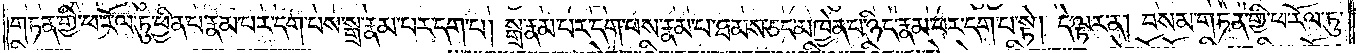གཏན་གྱི་ཕ་རོལ་ཏུ་ཕྱིན་པ་རྣམ་པར་དག་པས་སྒྲ་རྣམ་པར་དག་པ། སྒྲ་རྣམ་པར་དག་པས་རྣམ་པ་ཐམས་ཅད་མཁྱེན་པ་ཉིད་རྣམ་པར་དག་པ་སྟེ། དེ་ལྟར་ན། བསམ་གཏན་གྱི་ཕ་རོལ་ཏུ་
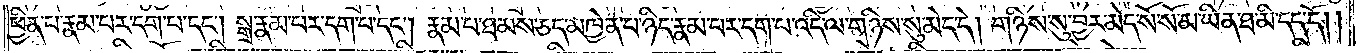ཕྱིན་པ་རྣམ་པར་དག་པ་དང༌། སྒྲ་རྣམ་པར་དག་པ་དང་།  རྣམ་པ་ཐམས་ཅད་མཁྱེན་པ་ཉིད་རྣམ་པར་དག་པ་འདི་ལ་གཉིས་སུ་མེད་དེ། གཉིས་སུ་བྱར་མེད་སོ་སོ་མ་ཡིན་ཐ་མི་དད་དོ། །
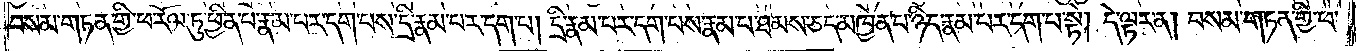བསམ་གཏན་གྱི་ཕ་རོལ་ཏུ་ཕྱིན་པ་རྣམ་པར་དག་པས་དྲི་རྣམ་པར་དག་པ༑ དྲི་རྣམ་པར་དག་པས་རྣམ་པ་ཐམས་ཅད་མཁྱེན་པ་ཉིད་རྣམ་པར་དག་པ་སྟེ། དེ་ལྟར་ན། བསམ་གཏན་གྱི་ཕ་
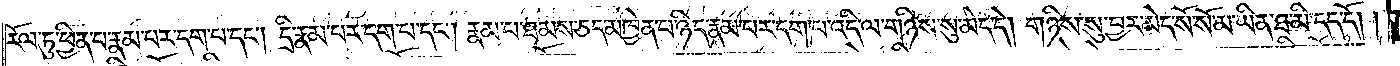རོལ་ཏུ་ཕྱིན་པ་རྣམ་པར་དག་པ་དང༌། དྲི་རྣམ་པར་དག་པ་དང༌། རྣམ་པ་ཐམས་ཅད་མཁྱེན་པ་ཉིད་རྣམ་པར་དག་པ་འདི་ལ་གཉིས་སུ་མེད་དེ། གཉིས་སུ་བྱར་མེད་སོ་སོ་མ་ཡིན་ཐ་མི་དད་དོ། །
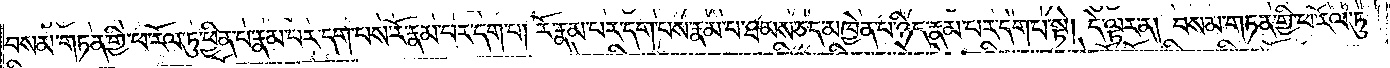བསམ་གཏན་གྱི་ཕ་རོལ་ཏུ་ཕྱིན་པ་རྣམ་པར་དག་པས་རོ་རྣམ་པར་དག་པ། རོ་རྣམ་པར་དག་པས་རྣམ་པ་ཐམས་ཅད་མཁྱེན་པ་ཉིད་རྣམ་པར་དག་པ་སྟེ། དེ་ལྟར་ན། བསམ་གཏན་གྱི་ཕ་རོལ་ཏུ་
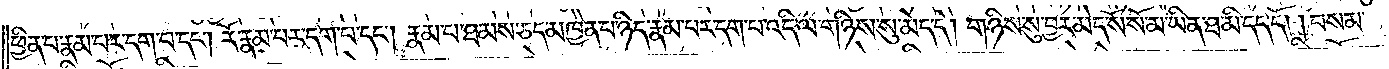ཕྱིན་པ་རྣམ་པར་དག་པ་དང༌། རོ་རྣམ་པར་དག་པ་དང༌། རྣམ་པ་ཐམས་ཅད་མཁྱེན་པ་ཉིད་རྣམ་པར་དག་པ་འདི་ལ་གཉིས་སུ་མེད་དེ། གཉིས་སུ་བྱར་མེད་སོ་སོ་མ་ཡིན་ཐ་མི་དད་དོ། །བསམ་
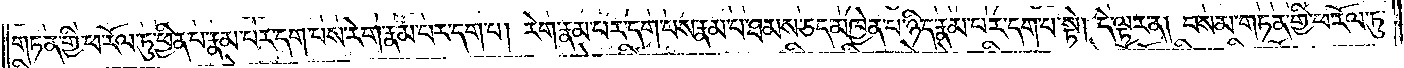གཏན་གྱི་ཕ་རོལ་ཏུ་ཕྱིན་པ་རྣམ་པར་དག་པས་རེག་རྣམ་པར་དག་པ། རེག་རྣམ་པར་དག་པས་རྣམ་པ་ཐམས་ཅད་མཁྱེན་པ་ཉིད་རྣམ་པར་དག་པ་སྟེ། དེ་ལྟར་ན། བསམ་གཏན་གྱི་ཕ་རོལ་ཏུ་
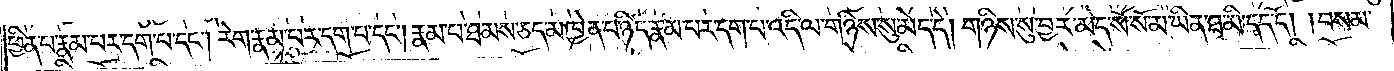ཕྱིན་པ་རྣམ་པར་དག་པ་དང༌། རེག་རྣམ་པར་དག་པ་དང༌། རྣམ་པ་ཐམས་ཅད་མཁྱེན་པ་ཉིད་རྣམ་པར་དག་པ་འདི་ལ་གཉིས་སུ་མེད་དེ། གཉིས་སུ་བྱར་མེད་སོ་སོ་མ་ཡིན་ཐ་མི་དད་དོ། །བསམ་
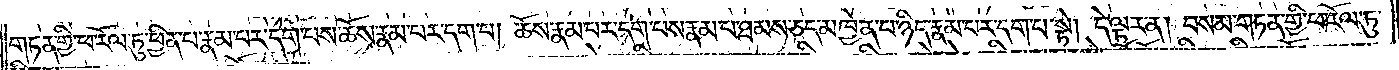གཏན་གྱི་ཕ་རོལ་ཏུ་ཕྱིན་པ་རྣམ་པར་དག་པས་ཆོས་རྣམ་པར་དག་པ། ཆོས་རྣམ་པར་དག་པས་རྣམ་པ་ཐམས་ཅད་མཁྱེན་པ་ཉིད་རྣམ་པར་དག་པ་སྟེ། དེ་ལྟར་ན། བསམ་གཏན་གྱི་ཕ་རོལ་ཏུ་
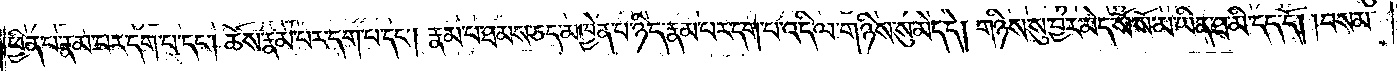ཕྱིན་པ་རྣམ་པར་དག་པ་དང༌། ཆོས་རྣམ་པར་དག་པ་དང༌། རྣམ་པ་ཐམས་ཅད་མཁྱེན་པ་ཉིད་རྣམ་པར་དག་པ་འདི་ལ་གཉིས་སུ་མེད་དེ་གཉིས་སུ་བྱར་མེད་སོ་སོ་མ་ཡིན་ཐ་མི་དད་དོ། །བསམ་
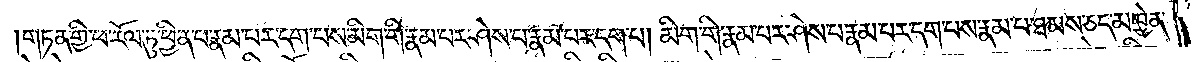གཏན་གྱི་ཕ་རོལ་ཏུ་ཕྱིན་པ་རྣམ་པར་དག་པས་མིག་གི་རྣམ་པར་ཤེས་པ་རྣམ་པར་དག་པ། མིག་གི་རྣམ་པར་ཤེས་པ་རྣམ་པར་དག་པས་རྣམ་པ་ཐམས་ཅད་མཁྱེན་
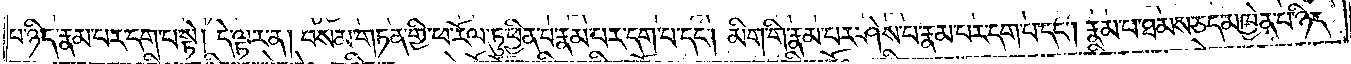པ་ཉིད་རྣམ་པར་དག་པ་སྟེ། དེ་ལྟར་ན། བསམ་གཏན་གྱི་ཕ་རོལ་ཏུ་ཕྱིན་པ་རྣམ་པར་དག་པ་དང༌། མིག་གི་རྣམ་པར་ཤེས་པ་རྣམ་པར་དག་པ་དང༌། རྣམ་པ་ཐམས་ཅད་མཁྱེན་པ་ཉིད་
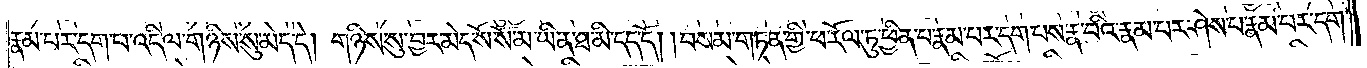རྣམ་པར་དག་པ་འདི་ལ་གཉིས་སུ་མེད་དེ། གཉིས་སུ་བྱར་མེད་སོ་སོ་མ་ཡིན་ཐ་མི་དད་དོ། །བསམ་གཏན་གྱི་ཕ་རོལ་ཏུ་ཕྱིན་པ་རྣམ་པར་དག་པས་རྣ་བའི་རྣམ་པར་ཤེས་པ་རྣམ་པར་དག་
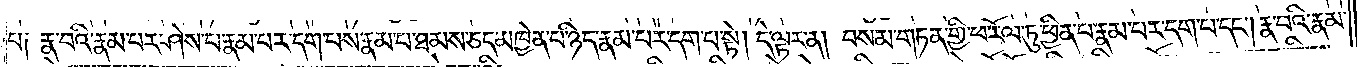པ། རྣ་བའི་རྣམ་པར་ཤེས་པ་རྣམ་པར་དག་པས་རྣམ་པ་ཐམས་ཅད་མཁྱེན་པ་ཉིད་རྣམ་པར་དག་པ་སྟེ། དེ་ལྟར་ན། བསམ་གཏན་གྱི་ཕ་རོལ་ཏུ་ཕྱིན་པ་རྣམ་པར་དག་པ་དང༌། རྣ་བའི་རྣམ་
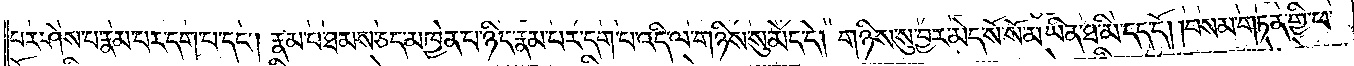པར་ཤེས་པ་རྣམ་པར་དག་པ་དང༌། རྣམ་པ་ཐམས་ཅད་མཁྱེན་པ་ཉིད་རྣམ་པར་དག་པ་འདི་ལ་གཉིས་སུ་མེད་དེ། གཉིས་སུ་བྱར་མེད་སོ་སོ་མ་ཡིན་ཐ་མི་དད་དོ། །བསམ་གཏན་གྱི་ཕ་
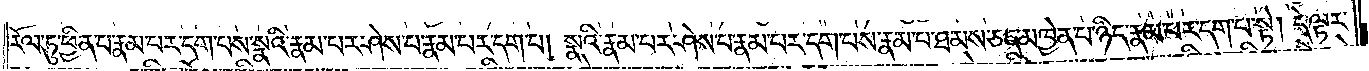རོལ་ཏུ་ཕྱིན་པ་རྣམ་པར་དག་པས་སྣའི་རྣམ་པར་ཤེས་པ་རྣམ་པར་དག་པ། སྣའི་རྣམ་པར་ཤེས་པ་རྣམ་པར་དག་པས་རྣམ་པ་ཐམས་ཅད་མཁྱེན་པ་ཉིད་རྣམ་པར་དག་པ་སྟེ། དེ་ལྟར་
